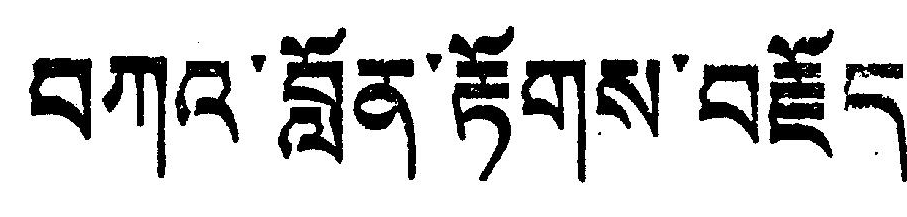བཀའ་བློན་རྟོགས་བརྗོད།
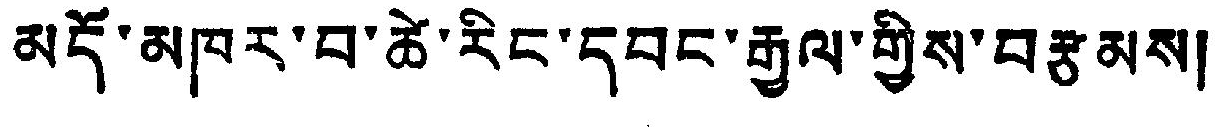མདོ་མཁར་བ་ཚེ་རིང་དབང་རྒྱལ་གྱིས་བརྩམས།
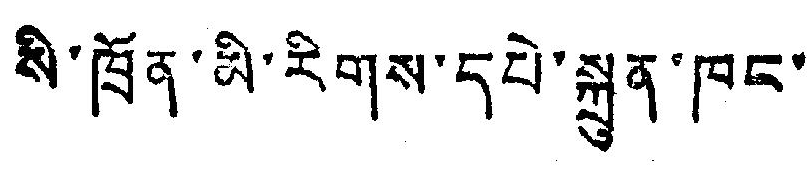སི་ཁྲོན་མི་རིགས་དཔེ་སྐྲུན་ཁང་།
